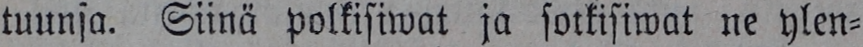tuunsa. Siinä polkisiwat ja sotkisiwat ne ylen-
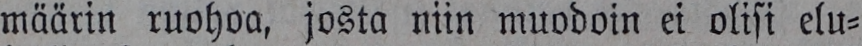määrin ruohoa, josta niin muodoin ei olisi elu-
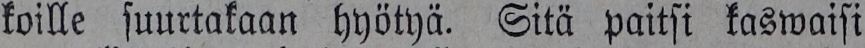koille suurtakaan hyötyä. Sitä paitsi käswaisi
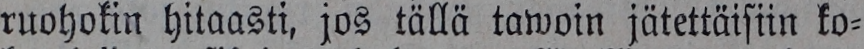ruohokin hitaasti, jos tällä tawoin jätettäisiin ko-
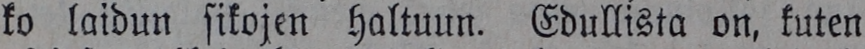ko laidun sikojen haltuun. Edullista on, kuten
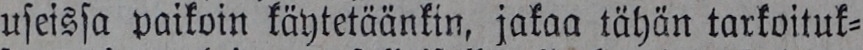useissa paikoin käytetäänkin, jakaa tähän tarkoituk-
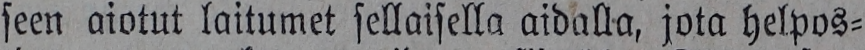seen aiotut laitumet sellaisella aidalla, jota helpos-
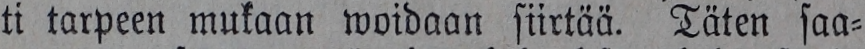ti tarpeen mukaan woidaan siirtää. Täten saa-
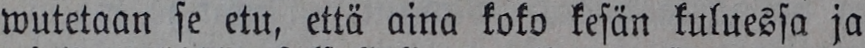wutetaan se etu, että aina koko kesän kuluessa ja
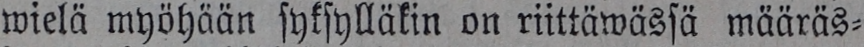wielä myöhään syksylläkin on riittäwässä määräs-
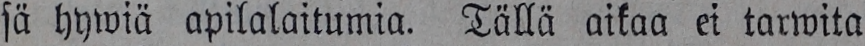sä hywiä apilalaitumia. Tällä aikaa ei tarwita
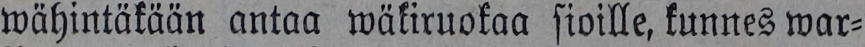wähintäkään antaa wäkiruokaa sioille, kunnes war-
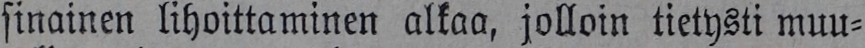sinainen lihoittaminen alkaa, jolloin tietysti muu-
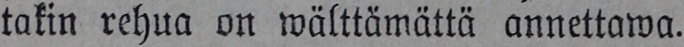takin rehua on wälttämättä annettawa.
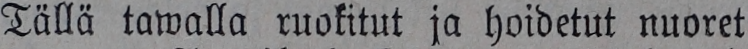Tällä tawalla ruokitut ja hoidetut nuoret
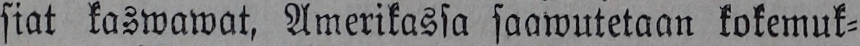siat kaswawat, Amerikassa saawutetaan kokemuk-
